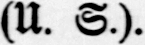(U. S ).
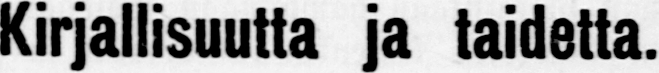Kirjallisuutta ja taidetta.
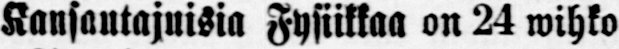Kansantajuisia Fysiikkaa on 24 wihko
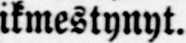ikmestynyt.
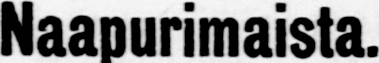Naapurimaista.
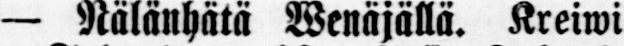— Nälänhätä Wenäjällä. Kreiwi
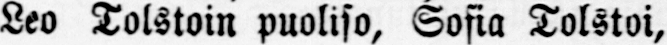Leo Tolstoin puoliso, Sofia Tolstoi,
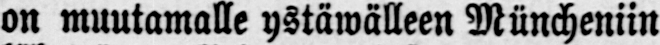on muutamalle ystäwälleen Müncheniin
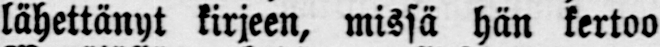lähettänyt kirjeen, missä hän kertoo
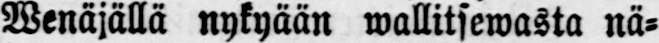Wenäjällä nykyään wallitsewasta nä-
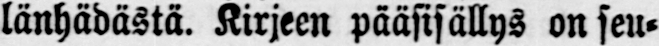länhädästä. Kirjeen pääsisällys on seu-
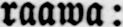raawa:
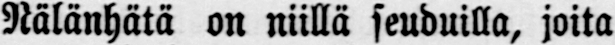Nälänhätä on niillä seuduilla, joita
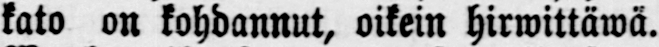kato on kohdannut, oikein hirwittäwä.
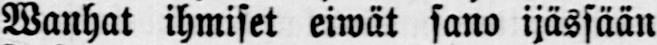Wanhat ihmiset eiwät sano ijässään
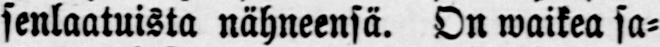senlaatuista nähneensä. On waikea sa-
